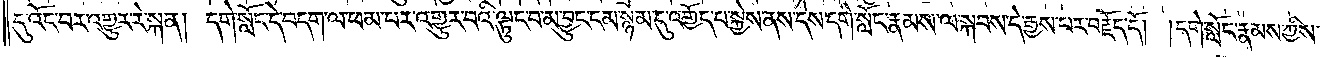དུ་འོང་བར་འགྱུར་རེ་སྐན། དགེ་སློང་དེ་བདག་ལ་ཕམ་པར་འགྱུར་བའི་ལྟུང་བ་མ་བྱུང་ངམ་སྙམ་དུ་འགྱོད་པ་སྐྱེས་ནས་དེས་དགེ་སློང་རྣམས་ལ་སྐབས་དེ་རྒྱས་པར་བརྗོད་དོ། །དགེ་སློང་རྣམས་ཀྱིས་
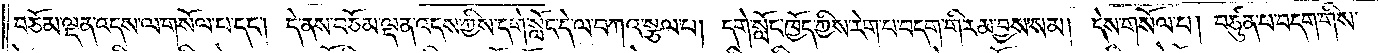བཅོམ་ལྡན་འདས་ལ་གསོལ་པ་དང༌། དེ་ནས་བཅོམ་ལྡན་འདས་ཀྱིས་དགེ་སློང་དེ་ལ་བཀའ་སྩལ་པ། དགེ་སློང་ཁྱོད་ཀྱིས་རེག་པ་བདག་གིར་མ་བྱས་སམ། དེས་གསོལ་པ། བཙུན་པ་བདག་གིས་
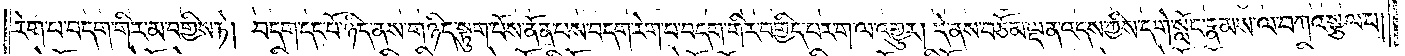རེག་པ་བདག་གིར་མ་བགྱིས་ཏེ། བདག་དང་པོ་ཉིད་ནས་གཉིད་སྟུག་པོས་ནོན་པས་བདག་རེག་པ་བདག་གིར་བགྱིད་པར་ག་ལ་འགྱུར། དེ་ནས་བཅོམ་ལྡན་འདས་ཀྱིས་དགེ་སློང་རྣམས་ལ་བཀའ་སྩལ་པ།
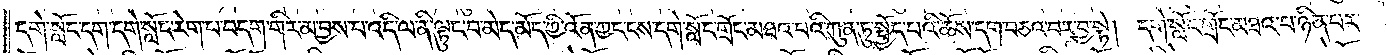དགེ་སློང་དག་དགེ་སློང་རེག་པ་བདག་གིར་མ་བྱས་པ་འདི་ལ་ནི་ལྟུང་བ་མེད་མོད་ཀྱི་འོན་ཀྱང་ངས་དགེ་སློང་གྲོང་མཐའ་བའི་ཀུན་ཏུ་སྤྱོད་པའི་ཆོས་དག་བཅའ་བར་བྱ་སྟེ། དགེ་སློང་གྲོང་མཐའ་པ་ཉིན་པར་
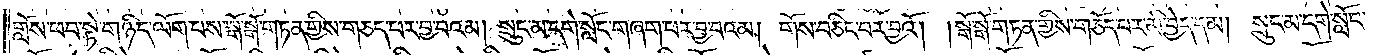གློས་ཕབ་སྟེ་གཉིད་ལོག་པས་སྒོ་སྒོ་གཏན་གྱིས་གཅད་པར་བྱ་བའམ། སྲུང་མ་དགེ་སློང་གཞག་པར་བྱ་བའམ། གོས་བཅིང་བར་བྱའོ། །སྒོ་སྒོ་གཏན་གྱིས་གཅོད་པར་མི་བྱེད་དམ། སྲུང་མ་དགེ་སློང་
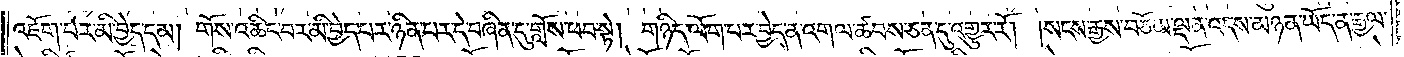འཇོག་པར་མི་བྱེད་དམ། གོས་འཆིང་བར་མི་བྱེད་པར་ཉིན་པར་དེ་བཞིན་དུ་གློས་ཕབ་སྟེ། གཉིད་ལོག་པར་བྱེད་ན་འགལ་ཚབས་ཅན་དུ་འགྱུར་རོ། །སངས་རྒྱས་བཅོམ་ལྡན་འདས་མཉན་ཡོད་ན་རྒྱལ་
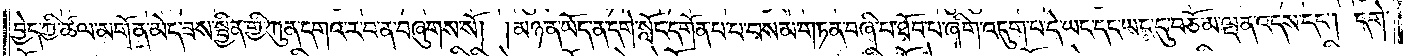བྱེད་ཀྱི་ཚལ་མགོན་མེད་ཟས་སྦྱིན་གྱི་ཀུན་དགའ་ར་བ་ན་བཞུགས་སོ། །མཉན་ཡོད་ན་དགེ་སློང་དགོན་པ་པ་བསམ་གཏན་བཞི་པ་ཐོབ་པ་ཞིག་འདུག་པ་དེ་ཡང་དང་ཡང་དུ་བཅོམ་ལྡན་འདས་དང༌། དགེ་
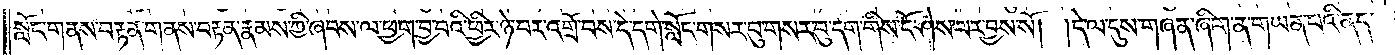སློང་གནས་བརྟན་གནས་བརྟན་རྣམས་ཀྱི་ཞབས་ལ་ཕྱག་བྱ་བའི་ཕྱིར་ཉེ་བར་འགྲོ་བས་དེ་དགེ་སློང་གསར་བུ་གསར་བུ་དག་གིས་ངོ་ཤེས་པར་བྱས་སོ། །དེ་ལ་དུས་གཞན་ཞིག་ན་གཡན་པའི་ནད་
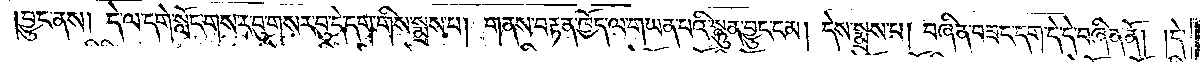།བྱུང་ནས། དེ་ལ་དགེ་སློང་གསར་བུ་གསར་བུ་དེ་དག་གིས་སྨྲས་པ། གནས་བརྟན་ཁྱོད་ལ་གཡན་པའི་སྙུན་བྱུང་ངམ། དེས་སྨྲས་པ། བཞིན་བཟང་དག་དེ་དེ་བཞིན་ནོ། །དེ་
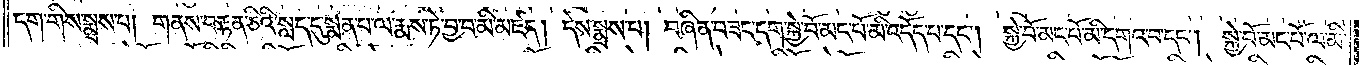དག་གིས་སྨྲས་པ། གནས་བརྟན་ཅིའི་སླད་དུ་སྨན་པ་ལ་རྨས་ཏེ་བྱ་བ་མི་མཛད། དེས་སྨྲས་པ། བཞིན་བཟང་དག་སྐྱེ་བོ་མང་པོ་མི་འདོད་པ་དང༌། སྐྱེ་བོ་མང་པོ་མི་དགའ་བ་དང༌། སྐྱེ་བོ་མང་པོ་ལ་མི་
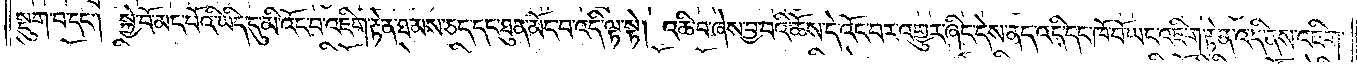སྡུག་བ་དང༌། སྐྱེ་བོ་མང་པོའི་ཡིད་དུ་མི་འོང་བ་འཇིག་རྟེན་ཐམས་ཅད་དང་ཐུན་མོང་བ་འདི་ལྟ་སྟེ། འཆི་བ་ཞེས་བྱ་བའི་ཆོས་དེ་འོང་བར་འགྱུར་ཞིང་དེས་ནད་འདི་དང་ཁོ་བོ་ཡང་འཇིག་རྟེན་འདི་ནས་འཇིག་
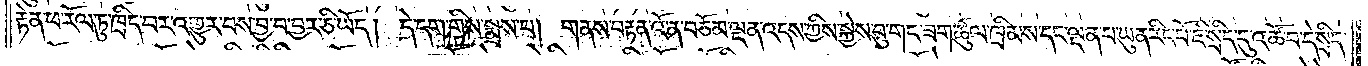རྟེན་ཕ་རོལ་ཏུ་ཁྲིད་པར་འགྱུར་བས་བྱ་བ་བྱར་ཅི་ཡོད། དེ་དག་གིས་སྨྲས་པ། གནས་བརྟན་འོ་ན་བཅོམ་ལྡན་འདས་ཀྱིས་སྐྱེས་བུ་གང་ཟག་ཚུལ་ཁྲིམས་དང་ལྡན་པ་ཡུན་རིང་པོ་ཇི་སྲིད་དུ་འཚོ་བ་དེ་སྲིད་
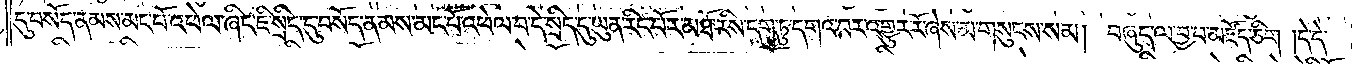དུ་བསོད་ནམས་མང་པོ་འཕེལ་ཞིང་ཇི་སྲིད་དུ་བསོད་ནམས་མང་པོ་འཕེལ་བ་དེ་སྲིད་དུ་ཡུན་རིང་པོར་མཐོ་རིས་དག་ཏུ་དགའ་བར་འགྱུར་རོ་ཞེས་མ་གསུངས་སམ། བཞུད་ལ་བྱ་བ་མཛོད་ཅིག །དེ་དེ་
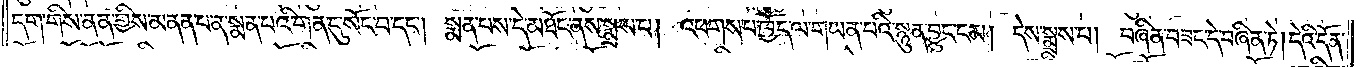དག་གིས་ནན་གྱིས་མནན་པ་ན་སྨན་པའི་གན་དུ་སོང་བ་དང༌། སྨན་པས་དེ་མཐོང་ནས་སྨྲས་པ། འཕགས་པ་ཁྱོད་ལ་གཡན་པའི་སྙུན་བྱུང་ངམ། དེས་སྨྲས་པ། བཞིན་བཟང་དེ་བཞིན་ཏེ། དེའི་དོན་
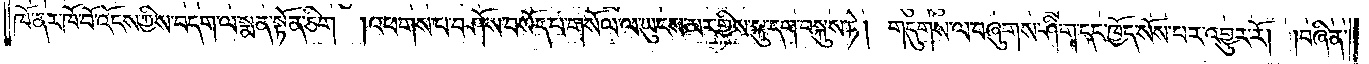ཁོ་ནར་ཁོ་བོ་འོངས་ཀྱིས་བདག་ལ་སྨན་སྟོན་ཅིག །འཕགས་པ་བཤོས་བསོད་པ་གསོལ་ལ་ཡུངས་མར་གྱིས་སྐུ་དག་བསྐུས་ཏེ། གདུགས་ལ་བཞུགས་ཤིག་དང་ཁྱོད་སོས་པར་འགྱུར་རོ། །བཞིན་
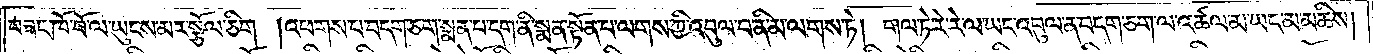བཟང་ཁོ་བོ་ལ་ཡུངས་མར་སྩོལ་ཅིག །འཕགས་པ་བདག་ཅག་སྨན་པ་དག་ནི་སྨན་སྟོན་པ་ལགས་ཀྱི་འབུལ་བ་ནི་མ་ལགས་ཏེ། གལ་ཏེ་རེ་རེ་ལ་ཡང་འབུལ་ན་བདག་ཅག་ལ་འཚལ་མ་ཡང་མ་མཆིས།
